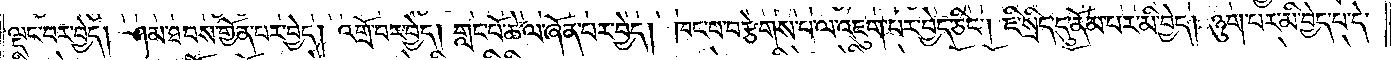ལྡང་བར་བྱེད། ཤམ་ཐབས་གྱོན་པར་བྱེད། འགྲོ་བར་བྱེད། གླང་པོ་ཆེ་ལ་ཞོན་པར་བྱེད། ཁང་པ་བརྩེགས་པ་ལ་འཇུག་པར་བྱེད་ཅིང༌། ཇི་སྲིད་དུ་ནོམ་པར་མི་བྱེད། ཉུག་པར་མི་བྱེད་པ་དེ་
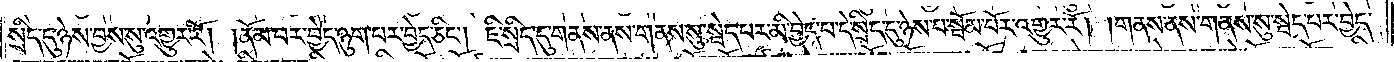སྲིད་དུ་ཉེས་བྱས་སུ་འགྱུར་རོ། །ནོམ་པར་བྱེད་ཉུག་པར་བྱེད་ཅིང༌། ཇི་སྲིད་དུ་གནས་ནས་གནས་སུ་སྦེད་པར་མི་བྱེད་པ་དེ་སྲིད་དུ་ཉེས་པ་སྦོམ་པོར་འགྱུར་རོ། །གནས་ནས་གནས་སུ་སྦེད་པར་བྱེད་
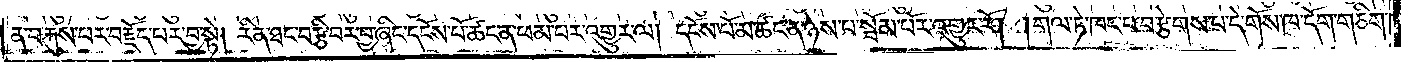ན་བརྐུས་པར་བརྗོད་པར་བྱ་སྟེ། རིན་ཐང་བརྩི་བར་བྱ་ཞིང་དངོས་པོ་ཚང་ན་ཕམ་པར་འགྱུར་ལ། དངོས་པོ་མ་ཚང་ན་ཉེས་པ་སྦོམ་པོར་འགྱུར་རོ། །གལ་ཏེ་ཁང་པ་བརྩེགས་པ་དེ་གོས་ཁ་དོག་གཅིག་
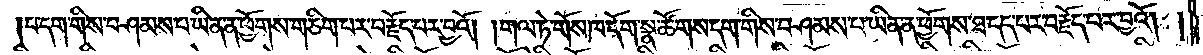།པ་དག་གིས་བཤམས་པ་ཡིན་ན་ཕྱོགས་གཅིག་པར་བརྗོད་པར་བྱའོ། །གལ་ཏེ་གོས་ཁ་དོག་སྣ་ཚོགས་དག་གིས་བཤམས་པ་ཡིན་ན་ཕྱོགས་ཐ་དད་པར་བརྗོད་པར་བྱའོ། །
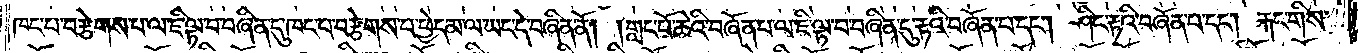ཁང་པ་བརྩེགས་པ་ལ་ཇི་ལྟ་བ་བཞིན་དུ་ཁང་པ་བརྩེགས་པ་ཕྱེད་མ་ལ་ཡང་དེ་བཞིན་ནོ། །གླང་པོ་ཆེའི་བཞོན་པ་ལ་ཇི་ལྟ་བ་བཞིན་དུ་རྟའི་བཞོན་པ་དང༌། ཤིང་རྟའི་བཞོན་པ་དང༌། རྐང་གིས་
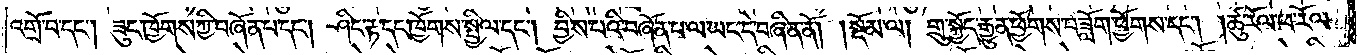འགྲོ་བ་དང༌། ཟུང་ཁྱོགས་ཀྱི་བཞོན་པ་དང༌། ཤིང་རྟ་དང་ཁྱོགས་སྤྱིལ་དང༌། བྱིས་པའི་བཞོན་པ་ལ་ཡང་དེ་བཞིན་ནོ། །སྡོམ་ལ། གྲུ་སྐྱོད་རྒྱུན་ཕྱོགས་བཟློག་ཕྱོགས་དང༌། །ཚུ་རོལ་ཕ་རོལ་
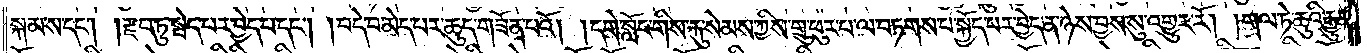སྐམ་ས་དང༌། །རྫབ་ཏུ་སྦེད་པར་བྱེད་པ་དང༌། །བདེ་བ་མེད་པར་ཆུད་གཟོན་པའོ། །དགེ་སློང་གི་རྐུན་སེམས་ཀྱིས་གྲུ་ཕུར་པ་ལ་བཏགས་པ་སྐྱོད་པར་བྱེད་ན་ཉེས་བྱས་སུ་འགྱུར་རོ། །གལ་ཏེ་ཆུའི་རྒྱུན་
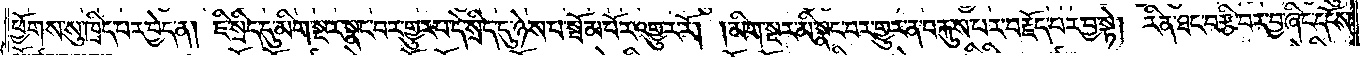ཕྱོགས་སུ་ཁྲིད་པར་བྱེད་ན། ཇི་སྲིད་དུ་མིག་སྔར་སྣང་བར་གྱུར་པ་དེ་སྲིད་དུ་ཉེས་པ་སྦོམ་པོར་འགྱུར་རོ། །མིག་སྔར་མི་སྣང་བར་གྱུར་ན་བརྐུས་པར་བརྗོད་པར་བྱ་སྟེ། རིན་ཐང་བརྩི་བར་བྱ་ཞིང་དངོས་
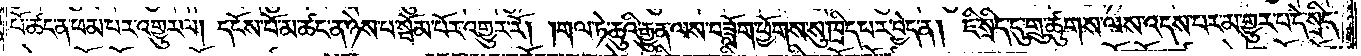པོ་ཚང་ན་ཕམ་པར་འགྱུར་ལ། དངོས་པོ་མ་ཚང་ན་ཉེས་པ་སྦོམ་པོར་འགྱུར་རོ། །གལ་ཏེ་ཆུའི་རྒྱུན་ལས་བཟློག་ཕྱོགས་སུ་ཁྲིད་པར་བྱེད་ན། ཇི་སྲིད་དུ་གྲུ་ཚུགས་ལས་འདས་པར་མ་གྱུར་པ་དེ་སྲིད་
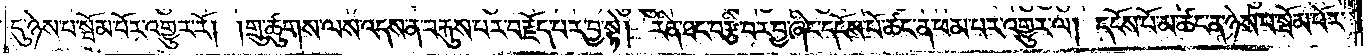དུ་ཉེས་པ་སྦོམ་པོར་འགྱུར་རོ། །གྲུ་ཚུགས་ལས་འདས་ན་བརྐུས་པར་བརྗོད་པར་བྱ་སྟེ། རིན་ཐང་བརྩི་བར་བྱ་ཞིང་དངོས་པོ་ཚང་ན་ཕམ་པར་འགྱུར་ལ། དངོས་པོ་མ་ཚང་ན་ཉེས་པ་སྦོམ་པོར་
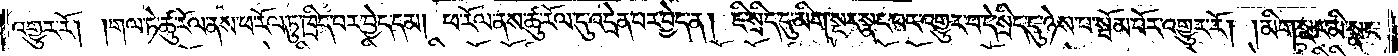འགྱུར་རོ། །གལ་ཏེ་ཚུ་རོལ་ནས་ཕ་རོལ་ཏུ་ཁྲིད་པར་བྱེད་དམ། ཕ་རོལ་ནས་ཚུ་རོལ་དུ་འདྲེན་པར་བྱེད་ན། ཇི་སྲིད་དུ་མིག་སྔར་སྣང་བར་འགྱུར་བ་དེ་སྲིད་དུ་ཉེས་པ་སྦོམ་པོར་འགྱུར་རོ། །མིག་སྔར་མི་སྣང་
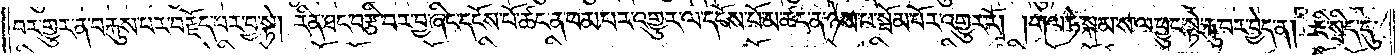བར་གྱུར་ན་བརྐུས་པར་བརྗོད་པར་བྱ་སྟེ། རིན་ཐང་བརྩི་བར་བྱ་ཞིང་དངོས་པོ་ཚང་ན་ཕམ་པར་འགྱུར་ལ་དངོས་པོ་མ་ཚང་ན་ཉེས་པ་སྦོམ་པོར་འགྱུར་རོ། །གལ་ཏེ་སྐམ་ས་ལ་ཕྱུང་སྟེ་རྐུ་བར་བྱེད་ན། ཇི་སྲིད་དུ་
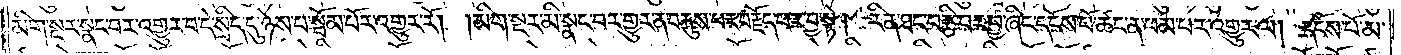མིག་སྔར་སྣང་བར་འགྱུར་བ་དེ་སྲིད་དུ་ཉེས་པ་སྦོམ་པོར་འགྱུར་རོ། །མིག་སྔར་མི་སྣང་བར་གྱུར་ན་བརྐུས་པར་བརྗོད་པར་བྱ་སྟེ། རིན་ཐང་བརྩི་བར་བྱ་ཞིང་དངོས་པོ་ཚང་ན་ཕམ་པར་འགྱུར་ལ། དངོས་པོ་མ་
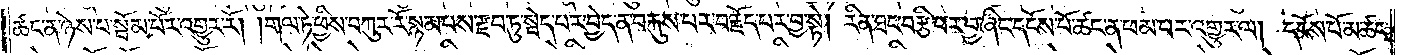ཚང་ན་ཉེས་པ་སྦོམ་པོར་འགྱུར་རོ། །གལ་ཏེ་ཕྱིས་བཀུར་རོ་སྙམ་པས་རྫབ་ཏུ་སྦེད་པར་བྱེད་ན་བརྐུས་པར་བརྗོད་པར་བྱ་སྟེ། རིན་ཐང་བརྩི་བར་བྱ་ཞིང་དངོས་པོ་ཚང་ན་ཕམ་པར་འགྱུར་ལ། དངོས་པོ་མ་ཚང་
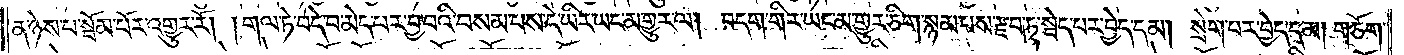ན་ཉེས་པ་སྦོམ་པོར་འགྱུར་རོ། །གལ་ཏེ་བདེ་བ་མེད་པར་བྱ་བའི་བསམ་པས་དེ་ཡིར་ཡང་མ་གྱུར་ལ། བདག་གིར་ཡང་མ་གྱུར་ཅིག་སྙམ་པས་རྫབ་ཏུ་སྦེད་པར་བྱེད་དམ། སྲེག་པར་བྱེད་དམ། གཅོག་
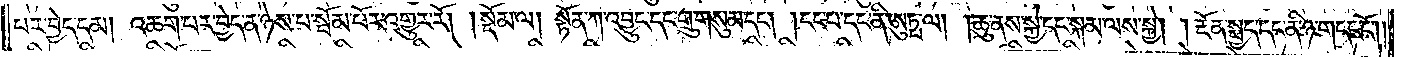པར་བྱེད་དམ། འཆག་པར་བྱེད་ན་ཉེས་པ་སྦོམ་པོར་འགྱུར་རོ། །སྡོམ་ལ། སྟོན་ཀ་འབྱུང་དང་གྲུ་གསུམ་དང༌། །ངང་པ་དང་ནི་ཨུཏྤ་ལ། །ཆུ་ནས་སྐྱེ་དང་སྐམ་ལས་སྐྱེ། །རྔོན་སྤྱད་དང་ནི་ཉ་གདང་ངོ༌། །
